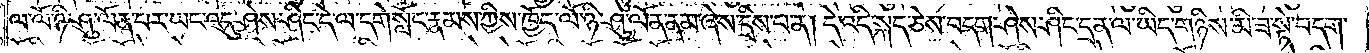ལ་ལོ་ཉི་ཤུ་ལོན་པར་ཡང་འདུ་ཤེས་ཤིང་དེ་ལ་དགེ་སློང་རྣམས་ཀྱིས་ཁྱོད་ལོ་ཉི་ཤུ་ལོན་ནམ་ཞེས་དྲིས་པ་ན། དེ་འདི་སྐད་ཅེས་བདག་ཤེས་ཤིང་དྲན་ལ་ཡིད་གཉིས་མི་ཟ་སྟེ་བདག་
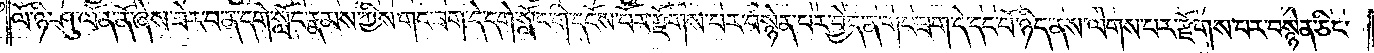ལོ་ཉི་ཤུ་ལོན་ནོ་ཞེས་ཟེར་བ་ན་དགེ་སློང་རྣམས་ཀྱིས་གང་ཟག་དེ་དགེ་སློང་གི་དངོས་པོར་རྫོགས་པར་བསྙེན་པར་བྱེད་ན་གང་ཟག་དེ་དང་པོ་ཉིད་ནས་ལེགས་པར་རྫོགས་པར་བསྙེན་ཅིང་
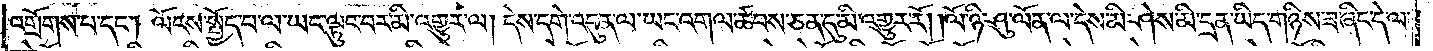འགྲོགས་པ་དང༌། ལོངས་སྤྱོད་པ་ལ་ཡང་ལྟུང་བར་མི་འགྱུར་ལ། དེས་དགེ་འདུན་ལ་ཡང་འགལ་ཚབས་ཅན་དུ་མི་འགྱུར་རོ། །ལོ་ཉི་ཤུ་ལོན་ལ་དེས་མི་ཤེས་མི་དྲན་ཡིད་གཉིས་ཟ་ཞིང་དེ་ལ་
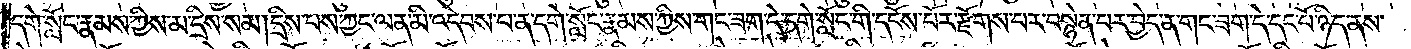དགེ་སློང་རྣམས་ཀྱིས་མ་དྲིས་སམ། དྲིས་པས་ཀྱང་ལན་མི་འདེབས་པ་ན་དགེ་སློང་རྣམས་ཀྱིས་གང་ཟག་དེ་དགེ་སློང་གི་དངོས་པོར་རྫོགས་པར་བསྙེན་པར་བྱེད་ན་གང་ཟག་དེ་དང་པོ་ཉིད་ནས་
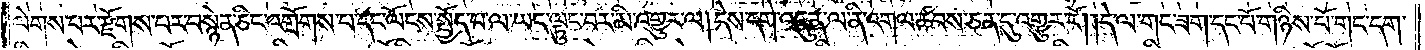ལེགས་པར་རྫོགས་པར་བསྙེན་ཅིང་འགྲོགས་པ་དང་ལོངས་སྤྱོད་པ་ལ་ཡང་ལྟུང་བར་མི་འགྱུར་ལ། དེས་དགེ་འདུན་ལ་ནི་འགལ་ཚབས་ཅན་དུ་འགྱུར་རོ། །དེ་ལ་གང་ཟག་དང་པོ་གཉིས་པོ་གང་དག་
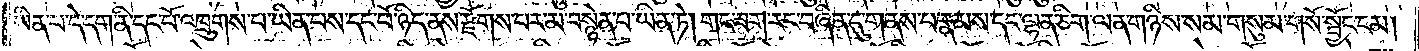ཡིན་པ་དེ་དག་ནི་དང་པོ་འཁྲུགས་པ་ཡིན་པས་དང་པོ་ཉིད་ནས་རྫོགས་པར་མ་བསྙེན་པ་ཡིན་ཏེ། གང་ཟག་རང་བཞིན་དུ་གནས་པ་རྣམས་དང་ལྷན་ཅིག་ལན་གཉིས་སམ་གསུམ་གསོ་སྦྱོང་ངམ།
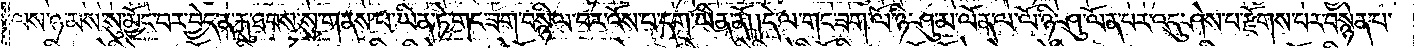ལས་ཉམས་སུ་མྱོང་བར་བྱེད་ན་རྐུ་ཐབས་སུ་གནས་པ་ཡིན་ཏེ་གང་ཟག་བསྙིལ་བར་འོས་པ་དག་ཡིན་ནོ། །དེ་ལ་གང་ཟག་ལོ་ཉི་ཤུ་མ་ལོན་ལ་ལོ་ཉི་ཤུ་ལོན་པར་འདུ་ཤེས་པ་རྫོགས་པར་བསྙེན་པ་
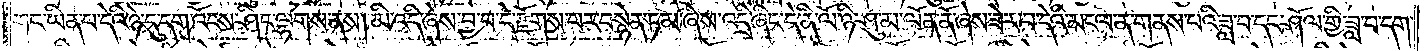གང་ཡིན་པ་དེའི་ཉེ་དུ་དག་འོངས་ཤིང་ལྷགས་ནས། མི་འདི་ཞེས་བྱ་བ་དེ་རྫོགས་པར་བསྙེན་ཏམ་ཞེས་འདྲི་ཞིང་དེ་ནི་ལོ་ཉི་ཤུ་མ་ལོན་ནོ་ཞེས་ཟེར་བ་དེའི་མངལ་ན་གནས་པའི་ཟླ་བ་དང་ཤོལ་གྱི་ཟླ་བ་དག་
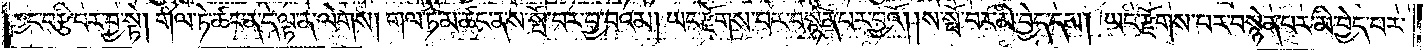ཀྱང་བརྩི་བར་བྱ་སྟེ། གལ་ཏེ་ཚང་ན་དེ་ལྟ་ན་ལེགས། གལ་ཏེ་མ་ཚང་ནས་སྤོ་བར་བྱ་བའམ། ཡང་རྫོགས་པར་བསྙེན་པར་བྱའོ། །ས་སྤོ་བར་མི་བྱེད་དམ། ཡང་རྫོགས་པར་བསྙེན་པར་མི་བྱེད་པར་
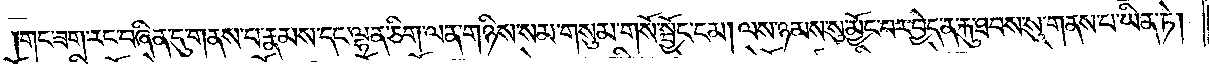གང་ཟག་རང་བཞིན་དུ་གནས་པ་རྣམས་དང་ལྷན་ཅིག་ལན་གཉིས་སམ་གསུམ་གསོ་སྦྱོང་ངམ། ལས་ཉམས་སུ་མྱོང་བར་བྱེད་ན་རྐུ་ཐབས་སུ་གནས་པ་ཡིན་ཏེ་
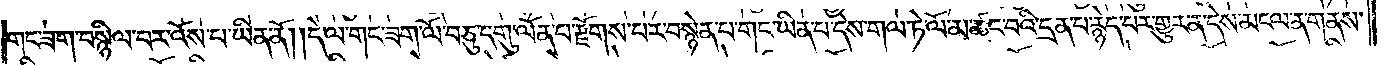གང་ཟག་བསྙིལ་བར་འོས་པ་ཡིན་ནོ། །དེ་ལ་གང་ཟག་ལོ་བཅུ་དགུ་ལོན་པ་རྫོགས་པར་བསྙེན་པ་གང་ཡིན་པ་དེས་གལ་ཏེ་ལོ་མ་ཚང་བའི་དྲན་པ་རྙེད་པར་གྱུར་ན་དེས་མངལ་ན་གནས་
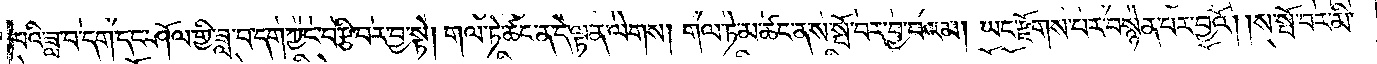པའི་ཟླ་བ་དག་དང་ཤོལ་གྱི་ཟླ་བ་དག་ཀྱང་བརྩི་བར་བྱ་སྟེ། གལ་ཏེ་ཚང་ན་དེ་ལྟ་ན་ལེགས། གལ་ཏེ་མ་ཚང་ནས་སྤོ་བར་བྱ་བའམ། ཡང་རྫོགས་པར་བསྙེན་པར་བྱའོ། །ས་སྤོ་བར་མི་
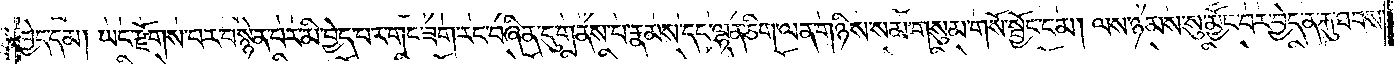བྱེད་དམ། ཡང་རྫོགས་པར་བསྙེན་པར་མི་བྱེད་པར་གང་ཟག་རང་བཞིན་དུ་གནས་པ་རྣམས་དང་ལྷན་ཅིག་ལན་གཉིས་སམ་གསུམ་གསོ་སྦྱོང་ངམ། ལས་ཉམས་སུ་མྱོང་བར་བྱེད་ན་རྐུ་ཐབས་
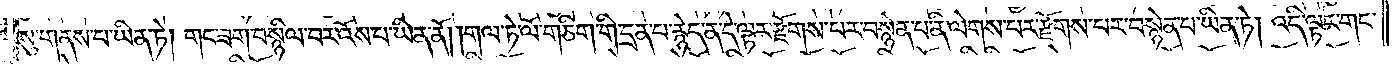སུ་གནས་པ་ཡིན་ཏེ། གང་ཟག་བསྙིལ་བར་འོས་པ་ཡིན་ནོ། །གལ་ཏེ་ལོ་གཅིག་གི་དྲན་པ་རྙེད་ན་དེ་ལྟར་རྫོགས་པར་བསྙེན་པ་ནི་ལེགས་པར་རྫོགས་པར་བསྙེན་པ་ཡིན་ཏེ། འདི་ལྟར་གང་
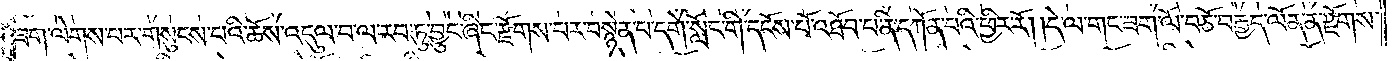ཟག་ལེགས་པར་གསུངས་པའི་ཆོས་འདུལ་བ་ལ་རབ་ཏུ་བྱུང་ཞིང་རྫོགས་པར་བསྙེན་པ་དགེ་སློང་གི་དངོས་པོ་འཐོབ་པ་ནི་དཀོན་པའི་ཕྱིར་རོ། །དེ་ལ་གང་ཟག་ལོ་བཅོ་བརྒྱད་ལོན་ན་རྫོགས་
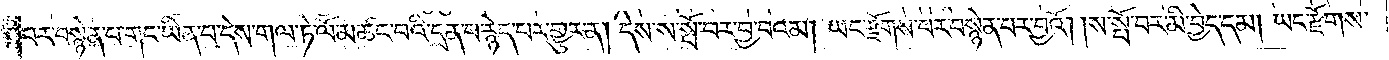པར་བསྙེན་པ་གང་ཡིན་པ་དེས་གལ་ཏེ་ལོ་མ་ཚང་བའི་དྲན་པ་རྙེད་པར་གྱུར་ན། དེས་ས་སྤོ་བར་བྱ་བའམ། ཡང་རྫོགས་པར་བསྙེན་པར་བྱའོ། །ས་སྤོ་བར་མི་བྱེད་དམ། ཡང་རྫོགས་
